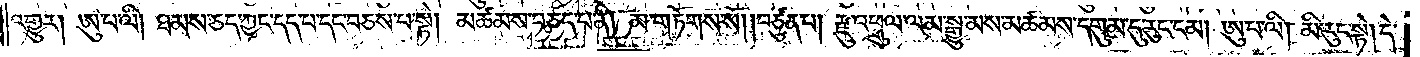འགྱུར། ཨུ་པ་ལི། ཐམས་ཅད་ཀྱང་དད་པ་དང་བཅས་པ་སྟེ། མཚམས་བཅད་པ་ནི། མ་གཏོགས་སོ། །བཙུན་པ། རྫུ་འཕྲུལ་ལམ་སྒྱུ་མས་མཚམས་དགུམ་དུ་རུང་ངམ། ཨུ་པ་ལི། མི་རུང་སྟེ། དེ་
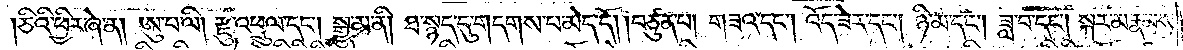ཅིའི་ཕྱིར་ཞེ་ན། ཨུ་པ་ལི། རྫུ་འཕྲུལ་དང༌། སྒྱུ་མ་ནི། ཐ་སྙད་དུ་གདགས་པ་མེད་དོ། །བཙུན་པ། གཟའ་དང༌། འོད་ཟེར་དང༌། ཉི་མ་དང༌། ཟླ་བ་དང༌། སྐར་མ་རྣམས་
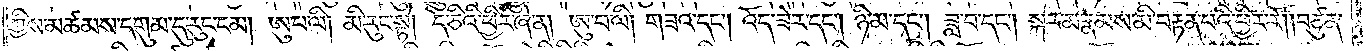ཀྱིས་མཚམས་དགུམ་དུ་རུང་ངམ། ཨུ་པ་ལི། མི་རུང་སྟེ། དེ་ཅིའི་ཕྱིར་ཞེ་ན། ཨུ་པ་ལི། གཟའ་དང༌། འོད་ཟེར་དང༌། ཉི་མ་དང༌། ཟླ་བ་དང༌། སྐར་མ་རྣམས་ཀྱི་མི་བརྟན་པའི་ཕྱིར་རོ། །བཙུན་
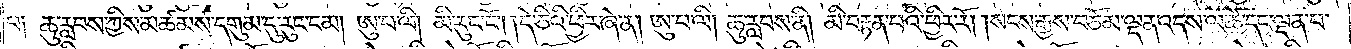པ༑ ཆུ་རླབས་ཀྱིས་མཚམས་དགུམ་དུ་རུང་ངམ། ཨུ་པ་ལི། མི་རུང་ངོ༌། །དེ་ཅིའི་ཕྱིར་ཞེ་ན། ཨུ་པ་ལི། ཆུ་རླབས་ནི། མི་བརྟན་པའི་ཕྱིར་རོ། །སངས་རྒྱས་བཅོམ་ལྡན་འདས་ལ་ཚེ་དང་ལྡན་པ་
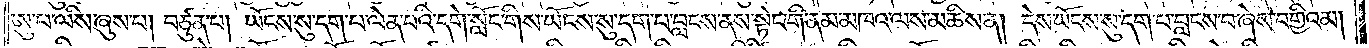ཨུ་པ་ལིས་ཞུས་པ། བཙུན་པ། ཡོངས་སུ་དག་པ་ལེན་པའི་དགེ་སློང་གིས་ཡོངས་སུ་དག་པ་བླངས་ནས་སྟེང་གི་ནམ་མཁའ་ལས་མཆིས་ན། དེས་ཡོངས་སུ་དག་པ་བླངས་པ་ཞེས་བགྱིའམ།
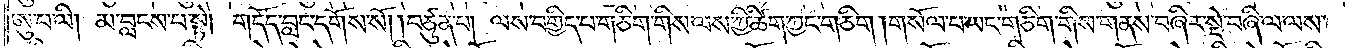ཨུ་པ་ལི། མ་བླངས་པ་སྟེ། གདོད་བླང་དགོས་སོ། །བཙུན་པ། ལས་བགྱིད་པ་གཅིག་གིས་ལས་ཀྱི་ཚིག་ཀྱང་གཅིག །གསོལ་པ་ཡང་གཅིག་གིས་གནས་གཞིར་སྡེ་བཞི་ལ་ལས་
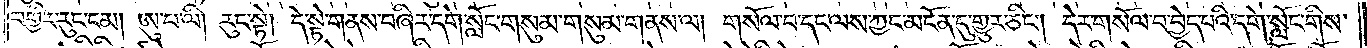བགྱིར་རུང་ངམ། ཨུ་པ་ལི། རུང་སྟེ། དེ་སྟེ་གནས་བཞིར་དགེ་སློང་གསུམ་གསུམ་གནས་ལ། གསོལ་བ་དང་ལས་ཀྱང་མངོན་དུ་གྱུར་ཅིང༌། དེར་གསོལ་བ་བྱེད་པའི་དགེ་སློང་གིས་
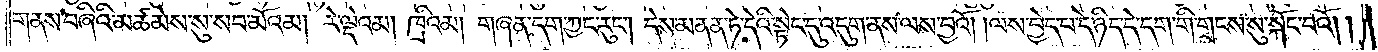གནས་བཞིའི་མཚམས་སུ་སབ་མོའམ། རེ་ལྡེའམ། ཁྲིའམ། གཞན་དག་ཀྱང་རུང༌། དེས་མནན་ཏེ་དེའི་སྟེང་དུ་འདུག་ནས་ལས་བྱའོ། །ལས་བྱེད་པ་དེ་ཉིད་དེ་དག་གི་གྲངས་སུ་སྐོང་བའོ། །
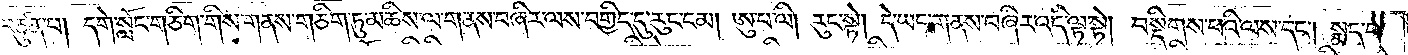བཙུན་པ། དགེ་སློང་གཅིག་གིས་གནས་གཅིག་ཏུ་མཆིས་ལ་གནས་བཞིར་ལས་བགྱིད་དུ་རུང་ངམ། ཨུ་པ་ལི། རུང་སྟེ། དེ་ཡང་གནས་བཞིར་འདི་ལྟ་སྟེ། བསྡིགས་པའི་ལས་དང༌། སྨད་པ་
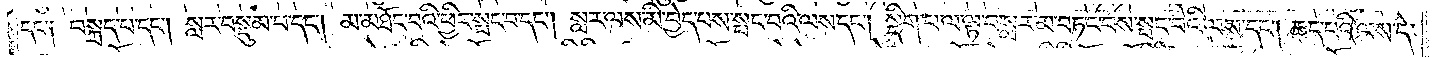དང༌༑ བསྐྲད་པ་དང༌། སླར་བསྡུམ་པ་དང༌། མ་མཐོང་བའི་ཕྱིར་སྤང་བ་དང༌། སླར་ལས་མི་བྱེད་པས་སྤང་བའི་ལས་དང༌། སྡིག་པ་ལ་ལྟ་བ་སླར་མ་བཏང་བས་སྤང་བའི་ལས་དང༌། ཆད་པའི་ལས་དེ་
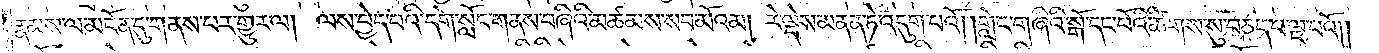རྣམས་ལ་མངོན་དུ་གནས་པར་གྱུར་ལ། ལས་བྱེད་པའི་དགེ་སློང་གནས་བཞིའི་མཚམས་སབ་མོའམ། རེ་ལྡེས་མནན་ཏེ་འདུག་པའོ། །གླེང་གཞིའི་སྒོ་དང་པོའི་ཚིགས་སུ་བཅད་པ་ལྔ་པའོ༎
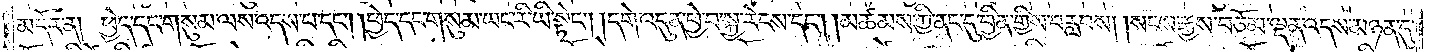མདོར་ན། ཕྱེད་དང་གསུམ་ལས་འདས་པ་དང༌། །ཕྱེད་དང་གསུམ་ཡང་རི་ཡི་སྟེང༌། །དགེ་འདུན་བྱེ་བ་སྐྱ་རེངས་དང༌། །མཚམས་ཀྱི་ནང་དུ་བྱིན་གྱིས་བརླབས། །སངས་རྒྱས་བཅོམ་ལྡན་འདས་མཉན་དུ་
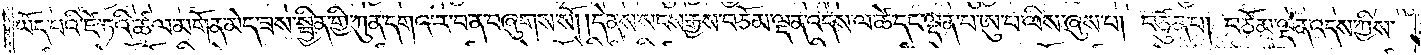ཡོད་པའི་ཛེ་ཏའི་ཚལ་མགོན་མེད་ཟས་སྦྱིན་གྱི་ཀུན་དགའ་ར་བ་ན་བཞུགས་སོ། །དེ་ནས་སངས་རྒྱས་བཅོམ་ལྡན་འདས་ལ་ཚེ་དང་ལྡན་པ་ཨུ་པ་ལིས་ཞུས་པ། བཙུན་པ། བཅོམ་ལྡན་འདས་ཀྱིས་
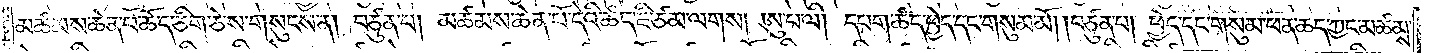མཚམས་ཆེན་པོ་ཆོད་ཅིག་ཅེས་གསུངས་ན། བཙུན་པ། མཚམས་ཆེན་པོ་དེའི་ཚད་ཇི་ཙམ་ལགས། ཨུ་པ་ལི། དཔག་ཚད་ཕྱེད་དང་གསུམ་མོ། །བཙུན་པ། ཕྱེད་དང་གསུམ་ཕན་དང་ཀྱང་མཚམས་
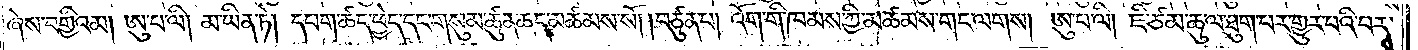ཞེས་བགྱིའམ། ཨུ་པ་ལི། མ་ཡིན་ཏེ། དཔག་ཚད་ཕྱེད་དང་གསུམ་ཚུན་ཆད་མཚམས་སོ། །བཙུན་པ། འོག་གི་ཁམས་ཀྱི་མཚམས་གང་ལགས། ཨུ་པ་ལི། ཇི་ཙམ་ཆུ་ལ་ཐུག་པར་གྱུར་པའི་བར་
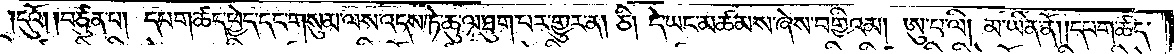དུའོ། །བཙུན་པ། དཔག་ཚད་ཕྱེད་དང་གསུམ་ལས་འདས་ཏེ་ཆུ་ལ་ཐུག་པར་གྱུར་ན། ཅི། དེ་ཡང་མཚམས་ཞེས་བགྱིའམ། ཨུ་པ་ལི། མ་ཡིན་ནོ། །དཔག་ཚད་
